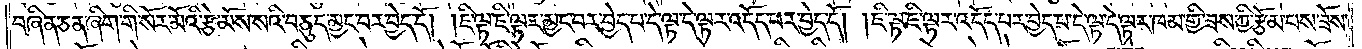བཞིན་ཅན་ཞིག་གི་སོར་མོའི་རྩེ་མོས་སའི་བཅུད་མྱང་བར་བྱེད་དོ། །ཇི་ལྟ་ཇི་ལྟར་མྱང་བར་བྱེད་པ་དེ་ལྟ་དེ་ལྟར་འདོད་པར་བྱེད་དོ། །ཇི་ལྟ་ཇི་ལྟར་འདོད་པར་བྱེད་པ་དེ་ལྟ་དེ་ལྟར་ཁམ་གྱི་ཟས་ཀྱི་རྩོམ་པས་ཟོས་
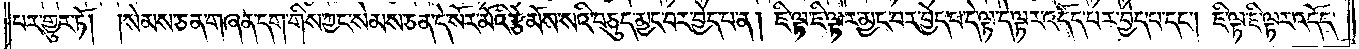པར་གྱུར་ཏོ། །སེམས་ཅན་གཞན་དག་གིས་ཀྱང་སེམས་ཅན་དེ་སོར་མོའི་རྩེ་མོས་སའི་བཅུད་མྱང་བར་བྱེད་པ་ན། ཇི་ལྟ་ཇི་ལྟར་མྱང་བར་བྱེད་པ་དེ་ལྟ་དེ་ལྟར་འདོད་པར་བྱེད་པ་དང༌། ཇི་ལྟ་ཇི་ལྟར་འདོད་
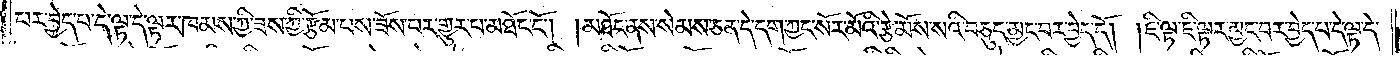པར་བྱེད་པ་དེ་ལྟ་དེ་ལྟར་ཁམས་ཀྱི་ཟས་ཀྱི་རྩོམ་པས་ཟོས་པར་གྱུར་པ་མཐོང་ངོ༌། །མཐོང་ནས་སེམས་ཅན་དེ་དག་ཀྱང་སོར་མོའི་རྩེ་མོས་སའི་བཅུད་མྱང་བར་བྱེད་དོ། །ཇི་ལྟ་ཇི་ལྟར་མྱང་བར་བྱེད་པ་དེ་ལྟ་དེ་
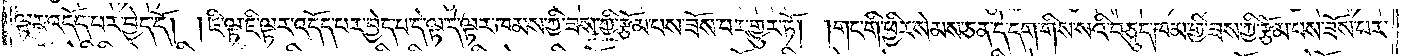ལྟར་འདོད་པར་བྱེད་དོ། །ཇི་ལྟ་ཇི་ལྟར་འདོད་པར་བྱེད་པ་དེ་ལྟ་དེ་ལྟར་ཁམས་ཀྱི་ཟས་ཀྱི་རྩོམ་པས་ཟོས་པར་གྱུར་ཏོ། །གང་གི་ཕྱིར་སེམས་ཅན་དེ་དག་གིས་སའི་བཅུད་ཁམ་གྱི་ཟས་ཀྱི་རྩོམ་པས་ཟོས་པར་
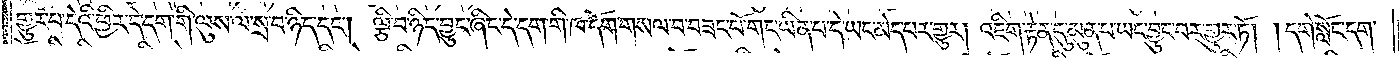གྱུར་པ་དེའི་ཕྱིར་དེ་དག་གི་ལུས་ལ་སྲ་བ་ཉིད་དང༌། ལྕི་བ་ཉིད་བྱུང་ཞིང་དེ་དག་གི་ཁ་དོག་གསལ་བ་བཟང་པོ་གང་ཡིན་པ་དེ་ཡང་མེད་པར་གྱུར། འཇིག་རྟེན་དུ་མུན་པ་ཡང་བྱུང་བར་གྱུར་ཏོ། །དགེ་སློང་དག་
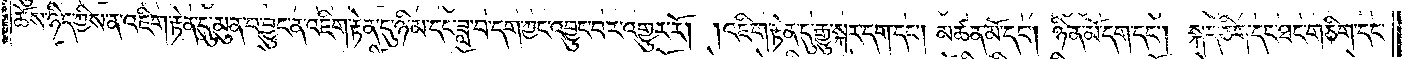ཆོས་ཉིད་ཀྱིས་ན་འཇིག་རྟེན་དུ་མུན་པ་བྱུང་ན་འཇིག་རྟེན་དུ་ཉི་མ་དང་ཟླ་བ་དག་ཀྱང་འབྱུང་བར་འགྱུར་རོ། །འཇིག་རྟེན་དུ་རྒྱུ་སྐར་དག་དང༌། མཚན་མོ་དང༌། ཉིན་མོ་དག་དང༌། སྐད་ཅིག་དང་ཐང་གཅིག་དང་
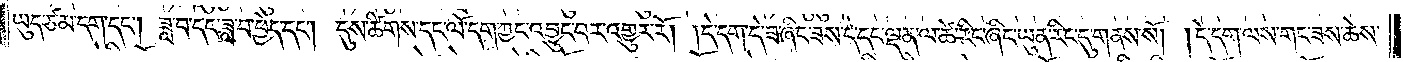ཡུད་ཙམ་དག་དང༌། ཟླ་བ་དང་ཟླ་བ་ཕྱེད་དང༌། དུས་ཚིགས་དང་ལོ་དག་ཀྱང་འབྱུང་བར་འགྱུར་རོ། །དེ་དག་དེ་ཟ་ཞིང་ཟས་དེ་དང་ལྡན་ལ་ཚེ་རིང་ཞིང་ཡུན་རིང་དུ་གནས་སོ། །དེ་དག་ལས་གང་ཟས་ཆེས་
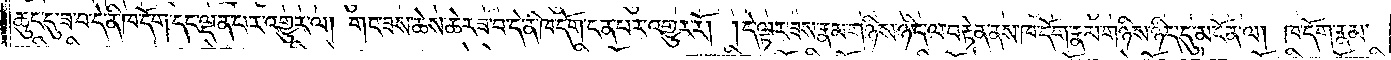ཆུང་ངུ་ཟ་བ་དེ་ནི་ཁ་དོག་དང་ལྡན་པར་འགྱུར་ལ། གང་ཟས་ཆེས་ཆེར་ཟ་བ་དེ་ནི་ཁ་དོག་ངན་པར་འགྱུར་རོ། །དེ་ལྟར་ཟས་རྣམ་གཉིས་ཉིད་ལ་བརྟེན་ནས་ཁ་དོག་རྣམ་གཉིས་ཉིད་དུ་མངོན་ལ། ཁ་དོག་རྣམ་
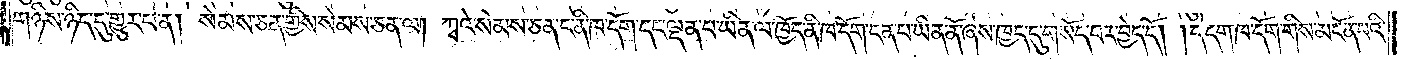གཉིས་ཉིད་དུ་གྱུར་པ་ན། སེམས་ཅན་གྱིས་སེམས་ཅན་ལ། ཀྭའེ་སེམས་ཅན་ང་ནི་ཁ་དོག་དང་ལྡན་པ་ཡིན་ལ་ཁྱོད་ནི་ཁ་དོག་ངན་པ་ཡིན་ནོ་ཞེས་ཁྱད་དུ་གསོད་པར་བྱེད་དོ། །དེ་དག་ཁ་དོག་གིས་མངོན་པའི་
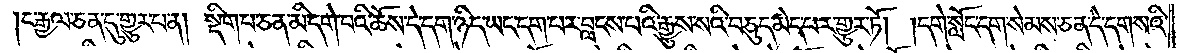།ང་རྒྱལ་ཅན་དུ་གྱུར་པ་ན། སྡིག་པ་ཅན་མི་དགེ་བའི་ཆོས་དེ་དག་ཉིད་ཡང་དག་པར་བླངས་པའི་རྒྱུས་སའི་བཅུད་མེད་པར་གྱུར་ཏོ། །དགེ་སློང་དག་སེམས་ཅན་དེ་དག་སའི་
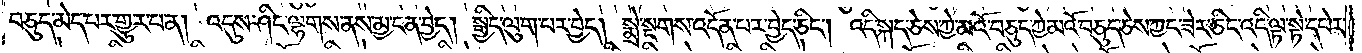བཅུད་མེད་པར་གྱུར་པ་ན། འདུས་ཤིང་ལྷགས་ནས་མྱ་ངན་བྱེད། སྒྱིད་ལུག་པར་བྱེད། སྨྲེ་སྔགས་འདོན་པར་བྱེད་ཅིང༌། འདི་སྐད་ཅེས་ཀྱེ་མའོ་བཅུད་ཀྱེ་མའོ་བཅུད་ཅེས་ཀྱང་ཟེར་ཅིང་འདི་ལྟ་སྟེ་དཔེར་
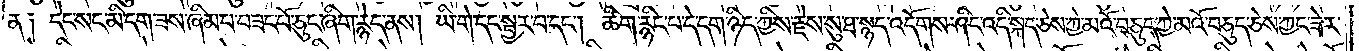ན༑ དེང་སང་མི་དག་ཟས་ཞིམ་པ་བཟང་པོ་ཅུང་ཞིག་རྙེད་ནས། ཡི་གེ་དང་སྦྱར་བ་དང༌། ཚིག་རྙིང་པ་དེ་དག་ཉིད་ཀྱིས་རྗེས་སུ་ཐ་སྙད་འདོགས་ཤིང་འདི་སྐད་ཅེས་ཀྱེ་མའོ་བཅུད་ཀྱེ་མའོ་བཅུད་ཅེས་ཀྱང་ཟེར་
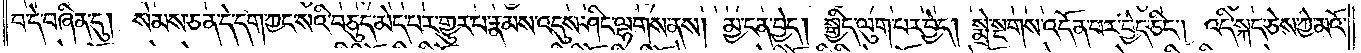བ་དེ་བཞིན་དུ། སེམས་ཅན་དེ་དག་ཀྱང་སའི་བཅུད་མེད་པར་གྱུར་པ་རྣམས་འདུས་ཤིང་ལྷགས་ནས། མྱ་ངན་བྱེད། སྒྱིད་ལུག་པར་བྱེད། སྨྲེ་སྔགས་འདོན་པར་བྱེད་ཅིང༌། འདི་སྐད་ཅེས་ཀྱེ་མའོ་
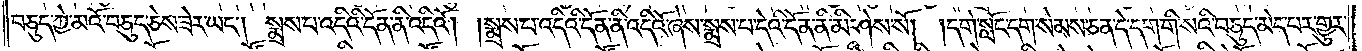བཅུད་ཀྱེ་མའོ་བཅུད་ཅེས་ཟེར་ཡང༌། སྨྲས་པ་འདིའི་དོན་ནི་འདིའོ། །སྨྲས་པ་འདིའི་དོན་ནི་འདིའོ་ཞེས་སྨྲས་པ་དེའི་དོན་ནི་མི་ཤེས་སོ། །དགེ་སློང་དག་སེམས་ཅན་དེ་དག་གི་སའི་བཅུད་མེད་པར་གྱུར་
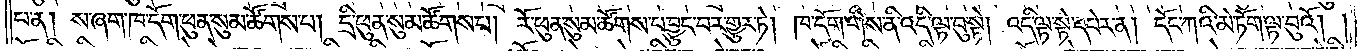པ་ན། ས་ཞག་ཁ་དོག་ཕུན་སུམ་ཚོགས་པ། དྲི་ཕུན་སུམ་ཚོགས་པ། རོ་ཕུན་སུམ་ཚོགས་པ་བྱུང་བར་གྱུར་ཏེ། ཁ་དོག་གིས་ནི་འདི་ལྟ་བུ་སྟེ། འདི་ལྟ་སྟེ་དཔེར་ན། དོང་ཀའི་མེ་ཏོག་ལྟ་བུའོ། །
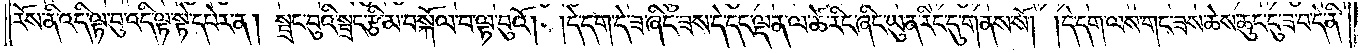རོས་ནི་འདི་ལྟ་བུ་འདི་ལྟ་སྟེ་དཔེར་ན། སྦྲང་བུའི་སྦྲང་རྩི་མ་བསྐོལ་བ་ལྟ་བུའོ། །དེ་དག་དེ་ཟ་ཞིང་ཟས་དེ་དང་ལྡན་ལ་ཚེ་རིང་ཞིང་ཡུན་རིང་དུ་གནས་སོ། །དེ་དག་ལས་གང་ཟས་ཆེས་ཆུང་ངུ་ཟ་བ་དེ་ནི་
